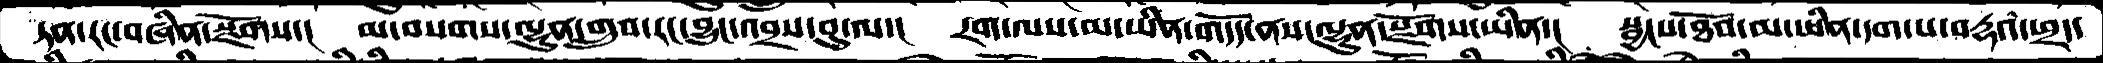ཏན་རང་བཞིན་སྫོགས་།  མ་བསགས་ལྷུན་གྲུབ་རང་བྱུང་འབྲས་བུ་ལ་།  དྲག་ལས་མ་ཡིན་གདོད་ནས་ལྷུན་སྫོགས་ཡིན་།  སྦྱངས་ཐོབ་མ་ཡིན་དག་པ་བརྡའ་ཕྲད་
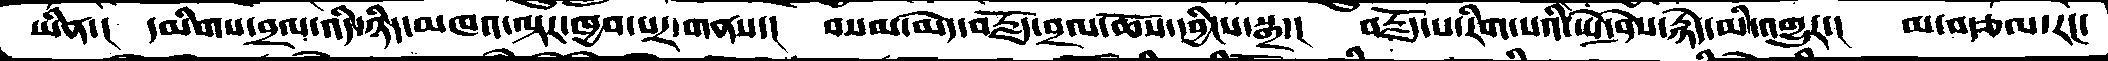ཡིན་།  དམིགས་བྲལ་འདི་ཉིད་མཁའ་ལྟར་ཁྱབ་པར་གནས་།  བསམ་མེད་བརྗོད་བྲལ་ཆོས་དབྱིངས་སྒྲ་།  བརྗོད་པ་རིག་པའི་ཡེ་ཤེས་རྙེད་མི་འགྱུར་།  མ་བརྩལ་རང་
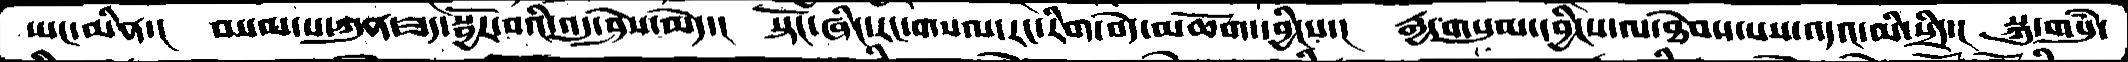ཡང་མིན་།  བསམ་པ་ཀུན་ཟད་སྦྱོར་བའི་འདུ་ཤེས་མེད་།  སྟོང་ཞིང་རང་གསལ་རང་རིག་བདེ་མཆོག་དབྱིངས་།  རྒྱ་གསུམ་དབྱིངས་ལ་ཐེབས་པས་འདའ་མི་སྲིད་། སྐུ་གསུཾ་
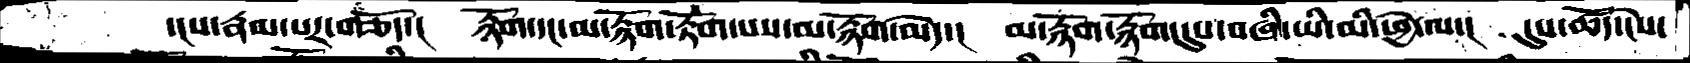་ངས་རྣམ་པར་གཅོད་། རྙོག་དང་མ་རྙོག་རྟོག་པས་མ་རྙོག་མེད་། མ་རྙོག་རྙོག་དུས་བཞི་ཡི་མི་ཕྱེ་ལ་། དུས་ཚོད་ངེས་
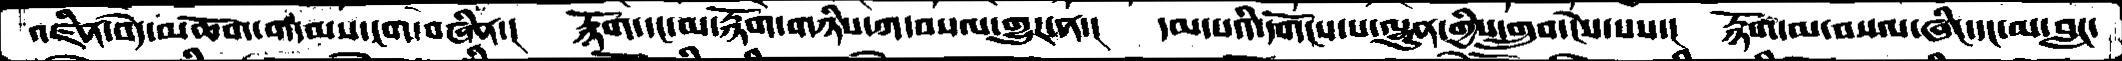འཛིན་བདེ་མཆོག་གདམས་ངག་བཞིན་།  རྙོག་དང་མ་རྙོག་གཉིས་ཀ་བསལ་གྱུར་ན་།  དམ་པའི་དགོངས་པ་ལྷུན་གྱིས་གྲུབ་ངེས་པས་།  རྙོག་མ་བསལ་ཞིང་དང་མ་བླང་
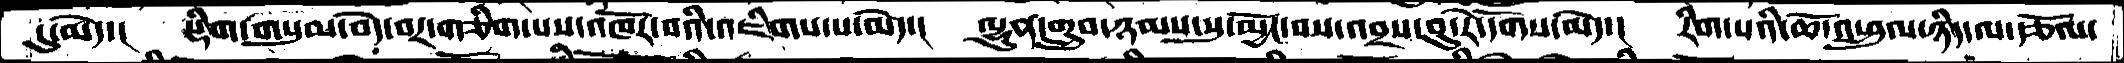དུ་མེད་།  སྡིག་གསུམ་བདེ་བར་གཅིག་པས་འཁོར་བའི་འཇིགས་པ་མེད་།  ལྷུན་གྲུབ་ཉམས་སུ་མྱོང་བས་འབྲས་བུ་རེ་དོགས་མེད་།  རིག་པའི་ཆོ་འཕྲུལ་ཉིད་ལ་རྩོལ་
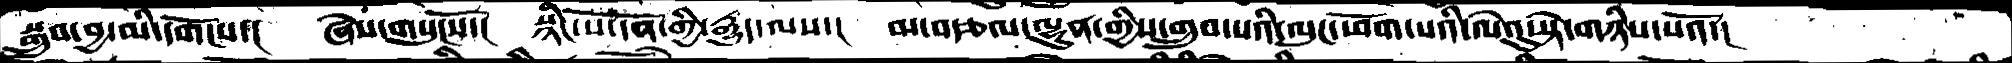སྒྲུབ་བྱ་མི་དགོངས་།  ཞེས་གསུངསོ་།  སྙིང་པོ་དོན་གྱི་རྒྱུད་ལས་།  མ་བརྩལ་ལྷུན་གྱིས་གྲུབ་པའི་ལུང་ཕོག་པའི་ལེའུ་སྟེ་གཉིས་པའོ་།
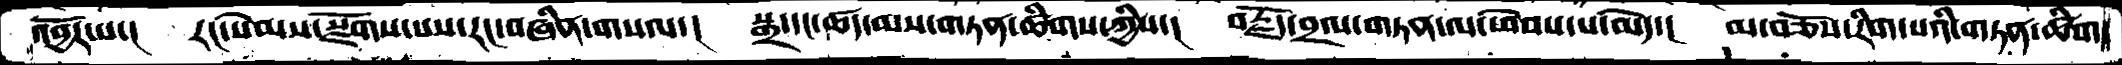འབྱོར་པ་།   རང་སེམས་སྫོགས་པས་རང་བཞིན་གསལ་།  སྒྲ་དང་ཚད་མས་གཏན་ཚིགས་ཀྱིས་།  བརྗོད་བྲལ་གཏན་ལ་ཕེབས་པ་མེད་།  མ་བཅོས་རིག་པའི་བཏན་ཚིག་
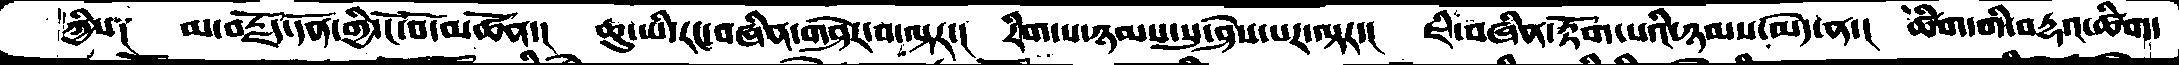ཀྱིས༑    མ་བརྗོད་དོན་གྱི་ངོ་བོ་མཚོན་།   ཆུ་ཡི་རང་བཞིན་གཤེར་བ་ལྟར་།  རིག་པ་ཉམས་སུ་ཤེས་པར་ལྟར་།  ཇི་བཞིན་རྟོག་པའི་ཉམས་མེད་ན་།  ཚིག་གི་བརྡའ་ཚིག་
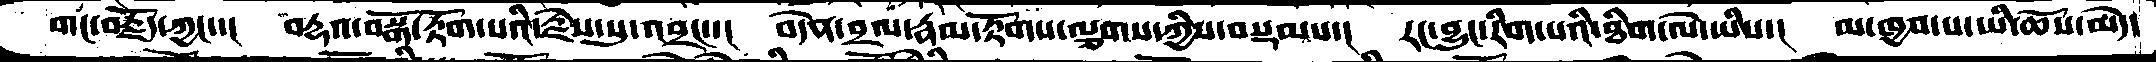གང་བརྗོད་ཀྱང་་།   བརྡའ་བསྒོ་རྟོག་པའི་རྗེས་སུ་འབྲང་་།   བདེན་བྲལ་རྣམ་རྟོགས་ལྕགས་ཀྱིས་བསྡམས་།  རང་བྱུང་རིག་པའི་ཐིག་ལེ་ཡིས་།  མ་ཁྱབ་པ་ཡི་ཆོས་མེད་
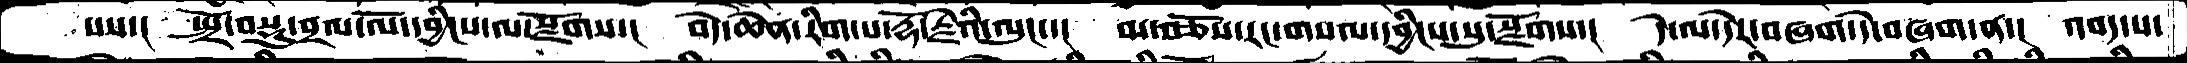པས་།   སྤྲོ་བསྡུ་བྲལ་ལོ་དབྱིངས་ལ་སྫོགས་།   བདེ་ཆེན་རིག་པ་རྡོ་རྗེའི་ལུང་་།  མ་བཅོས་རང་གསལ་དབྱིངས་སུ་སྫོགས་།  དེ་ལ་དེར་བཞག་དེ་བཞག་ན་།  འབད་པ་
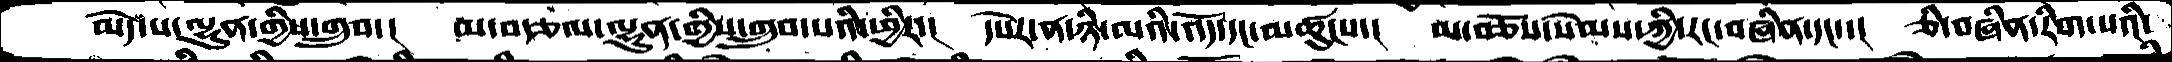མེད་པ་ལྷུན་གྱིས་གྲུབ་།   མ་བརྩལ་ལྷུན་གྱིས་གྲུབ་པའི་ཕྱིར་།   དཔེར་ན་ཉི་མའི་འོད་དང་མཚུངས་།  མ་བཅོས་སེམས་ཀྱི་རང་བཞིན་དང་་།   ཅི་བཞིན་རིག་པའི་
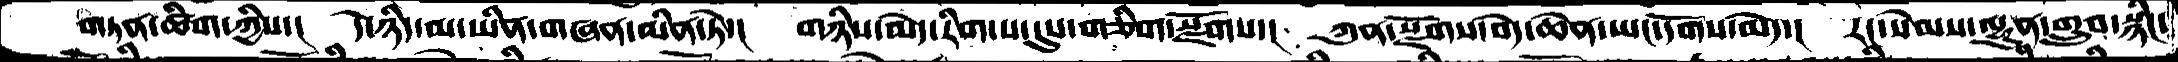གཏན་ཚིག་ཀྱིས་།   དེ་ཉིད་མ་ཡིན་གཞན་མིན་ཏེ་།  གཉིས་མེད་རིག་པ་དུས་གཅིག་སྫོགས་།  ཀུན་སྫོགས་བདེ་ཆེན་ཡང་དོགས་མེད་།  རང་སེམས་ལྷུན་གྲུབ་སྙིང་
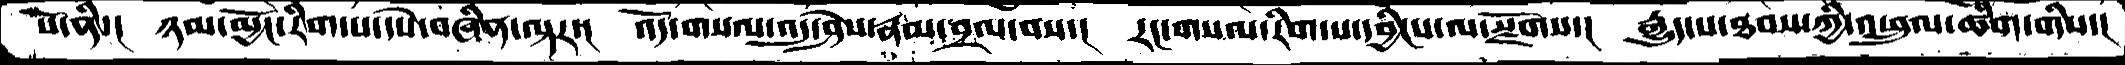སོ་ནི་།   ཉམ་མྱོང་རིག་པ་དཔེ་བཞིན་ལྟར་།  འོད་གསལ་འདུ་ཤེས་རྣམ་བྲལ་བས་།  རང་གསལ་རིག་པ་དབྱིངས་ལ་སྫོགས་།   རྒྱུད་པ་ཐབས་ཀྱི་འཕྲུལ་ཚིག་གིས་།
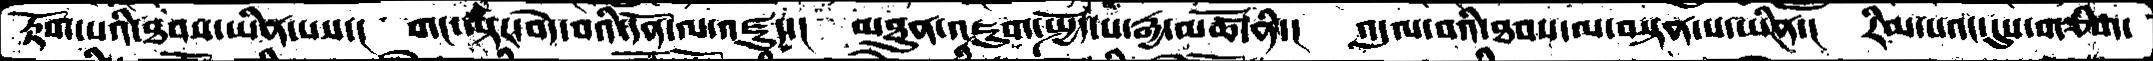རྟོག་པའི་ཐབས་ཡིན་པས་།   གང་ལྟར་བདེ་བའི་དོན་ལ་འཛུད་།  མཐུན་འཇུག་སྤྱོད་པ་རྒྱ་མཚོ་ནི་།  འདུལ་བའི་ཐབས་ལ་བསྟན་པ་ཡིན་།  རིམ་པའང་དུས་གཅིག་
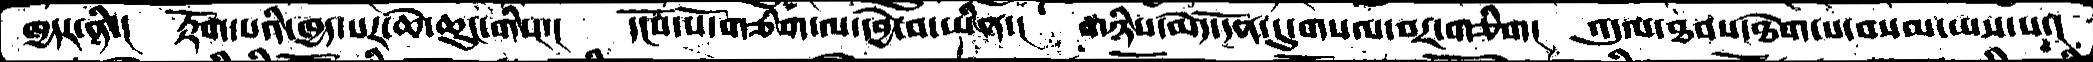ཁྱདར་ནི་།  རྟོག་པའི་ཁྱད་པར་ཆེ་ཆུང་གིས་།   དངོས་པོ་གཅིག་ལ་དབྱེ་བ་ཡིན་།  གཉིས་མེད་དོན་དུ་གསལ་བར་གཅིག།  འདུལ་ཐབས་ཐེག་པ་བསམ་ཡས་པ་།
